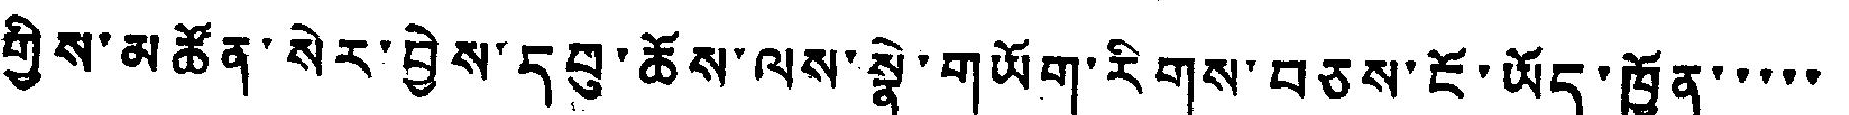གྱིས་མཚོན་སེར་བྱེས་དབུ་ཆོས་ལས་སྣེ་གཡོག་རིགས་བཅས་ངོ་ཡོད་ཁྱོན་་་་་
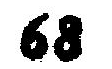68
